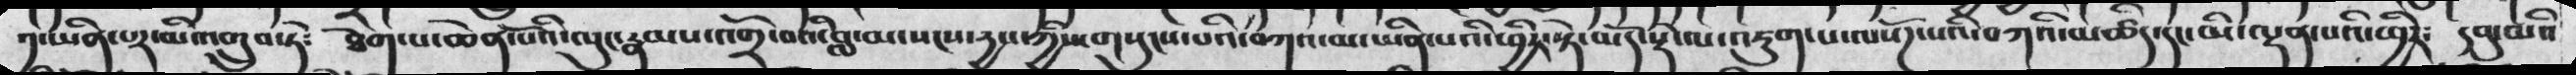༡་ཡིན་པར་མི་འགྲུབ་ཏེ༴  ཐེག་པ་ཆེན་པོའི་ལུང་རྣམས་འགྲོ་བའི་བླ་མ་སངས་རྒྱས་ཀྱིས་གསུངས་པའི་བཀའ་མ་ཡིན་པའི་ཕྱིར་སྟེ་མདོ་སྡེ་ལ་འཇུག་པ་ལ་སོཌ་པའི་བཀའི་མཚིད་དང་མི་ལྡན་པའི་ཕྱིར༴ དབུ་མའི
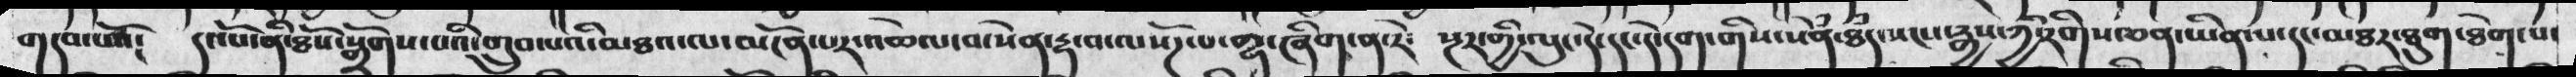གདབ་པོ་༴ དང་པོ་ནི་ཐོས་སྒྲོགས་པའི་གྲུབ་མཐའ་ལ་མངོན་པར་འཆེལ་བ་སེན་རྡ་བ་ལ་སོཌ་པ་གྷ་ཞིག་ན་རེ༴  སྔར་གྱི་ལུང་དེ་དང་དེ་དག་གིས་སེནྃ་ཐྃད་སངས་རྒྱས་ཀྱི་རིགས་ཅན་ཡིན་པ་དང་མཐར་ཐུག་ཐེག་པ་
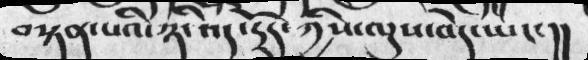བསྟན་པའི་ཉི་འོད་དྲོད་ཀྱིས་ལུས་བདེ་ཡང་།།
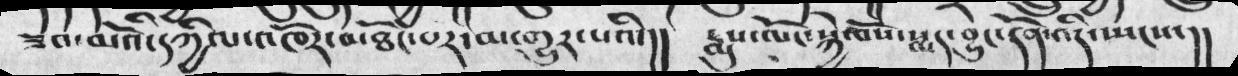ཟབ་མོའི་དཀྱིལ་འཁོར་མཐོང་པར་མ་གྱུར་པའི་།།   རྨུས་ལོང་སྐྱེལསོ་སྨད་བྱུང་དོན་འདི་ཡངས་།།
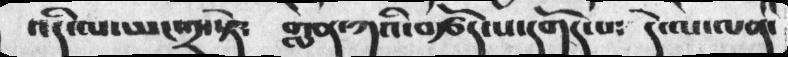དའི་ལ་ཡང་༢་སྟེ༴  གླན་ཀའི་བརྩོད་པ་དགོད་པ༴  དེ་ལ་ལན་
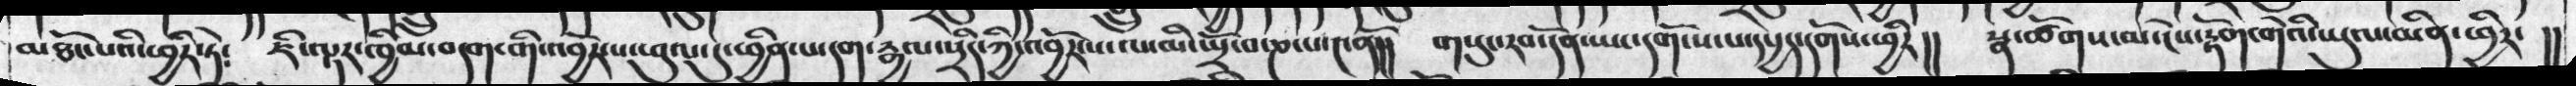མཐོང་པའི་ཕྱིར་ཏེ༴  ཇི་ལྟར་ཁྱིམ་བདག་གི་འབྱོར་པ་ཕུལ་དུ་ཕྱིན་པ་དག་རྒྱལ་སྲིད་ཀྱི་འབྱོར་པ་ལ་མི་སྤྲོ་བ་ཎ་པ་༤ནོ།།  གསུང་རབ་དོན་ཡང་དགོངས་པ་དཔྱད་དགོས་ཕྱིར།།  སྣ་ཚོགས་མ་ངེས་རྟོག་གེའི་ཡུལ་མིན་ཕྱིར་ །།
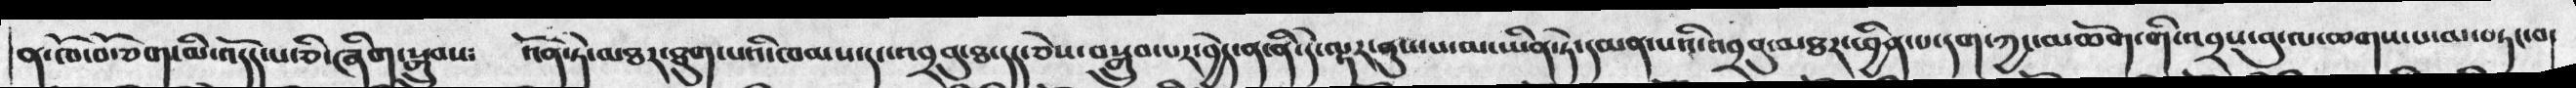ན་ཁོ་བོ་ཅག་མི་འདོད་པ་ཅི་ཞིག་སྒྲུབས༴  འོན་ཏེ་མཐར་ཐུག་པའི་ཁམས་དང་འབྲབུ་ཐ་དད་ཅེས་བསྒྲུབ་པར་བྱེད་ན་ནི་དེ་ལྟར་ནུས་པ་མ་ཡིན་ཏེ་དམན་པའི་འབྲབུ་མཐར་ཕྱིན་པ་དག་ཀྱང་མཆོག་གི་འབྲས་བུ་ལ་ཆགས་པ་མ་བཏང་བ་
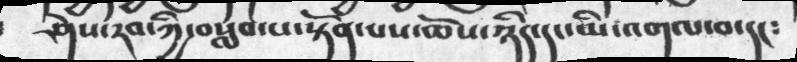ཤེས་རབ་ཀྱི་བསླབ་པ་སྟོན་པས་ཆོས་ཉིད་དང་མི་འགལ་བ་དང༴
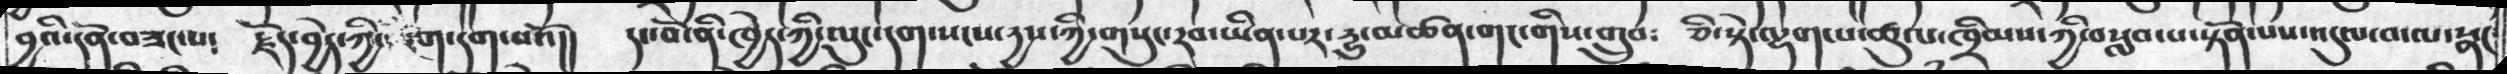བྱའི་དོན་བཟང་པ༴  རྗོད་བྱེད་ཀྱི་ངག་དག་པའོ།།  དང་བོ་ནི་ཁྱེད་ཀྱི་ལུང་དག་སངས་རྒྱས་ཀྱི་གསུང་རབ་ཡིན་པར་རྒྱུ་མཚན་གང་གིས་གྲུབ༴  ཅི་སྟེ་ལྷག་པ་ཚུལ་ཁྲིམས་ཀྱི་བསླབ་པ་སྟོན་པས་འདུལ་བ་ལ་སྣང
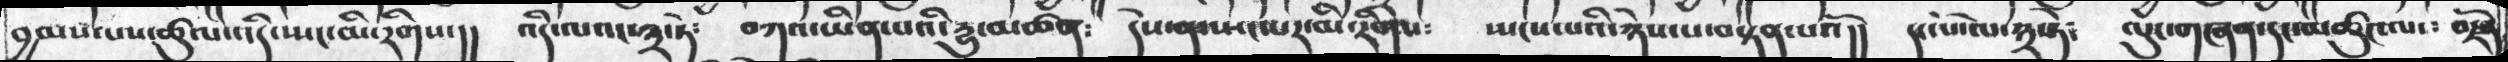བྱམས་པས་ཚུལ་འདི་ཡང་མི་རིགས་།།  འདི་ལའང་༣་ཏེ་  བཀའ་ཡིན་པའི་རྱུ་མཚན༴  དེས་ན་སྤང་པར་མི་རིགས༴  སྤངས་པའི་ཉེས་པ་བསྟན་པའོ།།  དང་པོ་ལ་༣་ཏེ༴  ལུང་གཞན་དང་མཚུང་ལ་  ་ བརྗོད
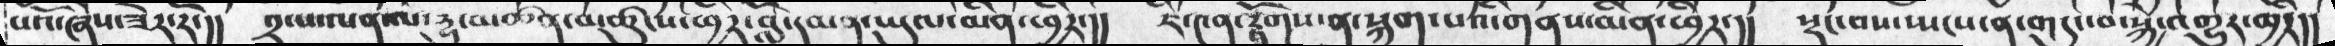པའོ་ཞེས་ཟེར་རོ་།།  ༢་པ་ལན་ལ་རྱུ་མཚན་མཚུངས་ཕྱིར་བློ་དམན་ཡུལ་མིན་ཕྱིར་།།  ཇི་༤ན་རྟོགས་ན་སྐྲག་པའི་གནས་མིན་ཕྱིར་།།  སྡང་བས་སྤངས་ན་གདུང་བ་སྐྱེ་འགྱུར་ཁྱེད།།
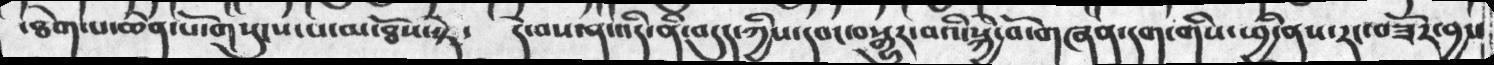་ཐེག་པ་ཆེན་པོ་གསུངས་པ་མ་ཐོས་སྟེ་  དེ་བས་ན་འདི་ནི་བདུད་ཀྱིས་དབང་བསྒྱུར་བའི་སྐྱེ་བོ་གཞན་དག་གིས་ཕྱི་ནས་རང་བཟོར་བྱས
